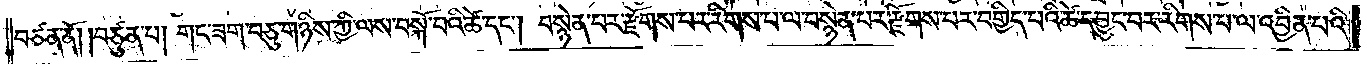བཙན་ནོ། །བཙུན་པ། གང་ཟག་བཅུ་གཉིས་ཀྱི་ལས་བསྐོ་བའི་ཚེ་དང༌། བསྙེན་པར་རྫོགས་པར་རིགས་པ་ལ་བསྙེན་པར་རྫོགས་པར་བགྱིད་པའི་ཚེ་དབྱུང་བར་རིགས་པ་ལ་འབྱིན་པའི་
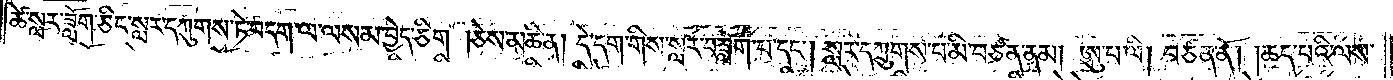ཚེ་སླར་ཟློག་ཅིང་སླར་དཀུགས་ཏེ་བདག་ལ་ལས་མ་བྱེད་ཅིག །ཅེས་མཆི་ན། དེ་དག་གིས་སླར་བཟློག་པ་དང༌། སླར་དཀྲུགས་པ་མི་བཙན་ནམ། ཨུ་པ་ལི། བཙན་ནོ། །ཆད་པའི་ལས་
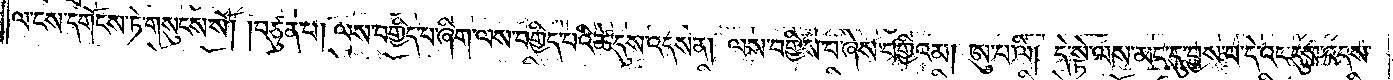ལ་ངས་དགོངས་ཏེ་གསུངས་སོ། །བཙུན་པ། ལས་བགྱིད་པ་ཞིག་ལས་བགྱིད་པའི་ཚེ་དུས་འདས་ན། ལས་བགྱིས་པ་ཞེས་བགྱིའམ། ཨུ་པ་ལི། དེ་སྟེ་ལས་མང་དུ་བྱས་པ་དེའང་དུས་འདས་
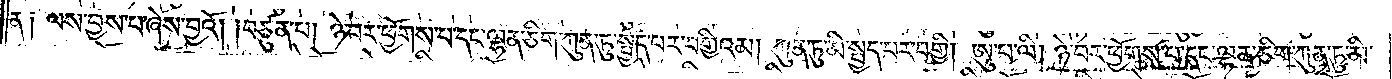ན། ལས་བྱས་པ་ཞེས་བྱའོ། །བཙུན་པ། ཉེ་བར་ཕྱོགས་པ་དང་ལྷན་ཅིག་ཀུན་ཏུ་སྤྱད་པར་བགྱིའམ། ཀུན་ཏུ་མི་སྤྱད་པར་བགྱི། ཨུ་པ་ལི། ཉེ་བར་ཕྱོགས་པ་དང་ལྷན་ཅིག་ཀུན་ཏུ་མི་
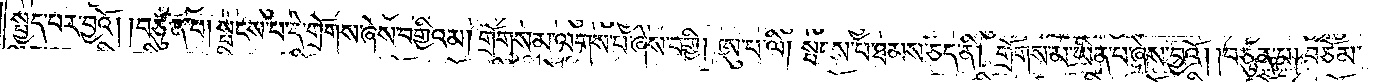སྤྱད་པར་བྱའོ། །བཙུན་པ། སྤངས་པ་དེ་གྲོགས་ཞེས་བགྱིའམ། གྲོགས་མ་ལགས་པ་ཞེས་བགྱི། ཨུ་པ་ལི། སྤངས་པ་ཐམས་ཅད་ནི། གྲོགས་མ་ཡིན་པ་ཞེས་བྱའོ། །བཙུན་པ། བཅོམ་
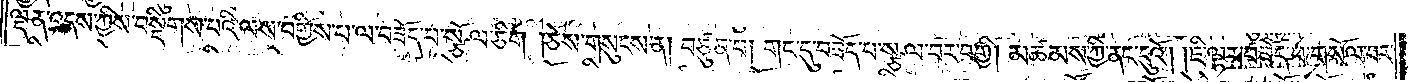ལྡན་འདས་ཀྱིས་བསྡིགས་པའི་ལས་བགྱིས་པ་ལ་བཟོད་པ་སྩོལ་ཅིག །ཅེས་གསུངས་ན། བཙུན་པ། གང་དུ་བཟོད་པ་སྩལ་བར་བགྱི། མཚམས་ཀྱི་ནང་དུའོ། །ཇི་ལྟར་བཟོད་པ་གསོལ་བར་
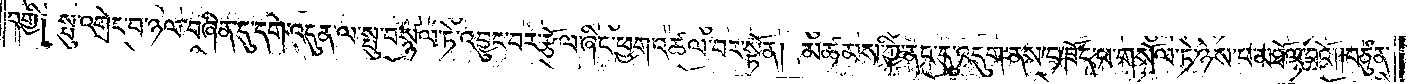བགྱི། སྤུ་འགྲེང་བ་ཉལ་བཞིན་དུ་དགེ་འདུན་ལ་སྤུ་བསྙལ་ཏེ་འབྱུང་བར་རྩོལ་ཞིང་ཕྱག་འཚལ་བར་སྟོན། མཚམས་ཀྱི་ནང་དུ་འདུག་ནས་བཟོད་པ་གསོལ་ཏེ་ཉེས་པ་མཐོལ་བའོ། །བཙུན་
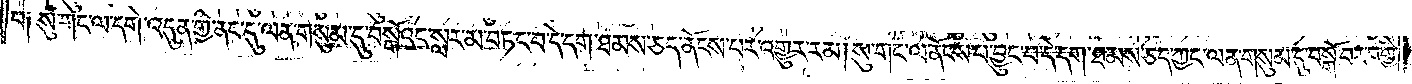པ། སུ་གང་ལ་དགེ་འདུན་གྱི་ནང་དུ་ལན་གསུམ་དུ་བསྒོའང་སླར་མ་བཏང་བ་དེ་དག་ཐམས་ཅད་ནོངས་པར་འགྱུར་རམ། སུ་གང་ལ་ནོངས་པ་བྱུང་བ་དེ་དག་ཐམས་ཅད་ཀྱང་ལན་གསུམ་དུ་བསྒོ་བར་བགྱི་
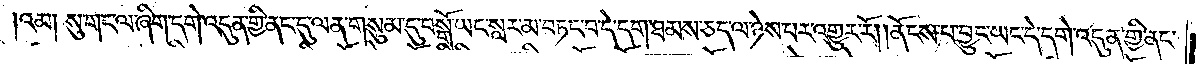འམ། སུ་གང་ལ་ཞིག་དགེ་འདུན་གྱི་ནང་དུ་ལན་གསུམ་དུ་བསྒོ་ཡང་སླར་མ་བཏང་བ་དེ་དག་ཐམས་ཅད་ལ་ཉེས་པར་འགྱུར་རོ། །ནོངས་པ་བྱུང་ཡང་དེ་དགེ་འདུན་གྱི་ནང་
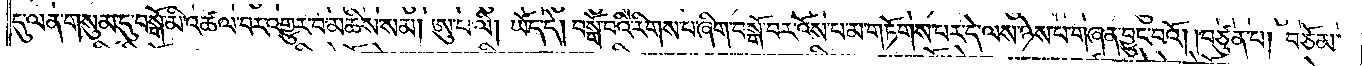དུ་ལན་གསུམ་དུ་བསྒོ་མི་འཚལ་བར་འགྱུར་བ་མཆིས་སམ། ཨུ་པ་ལི། ཡོད་དེ། བསྒོ་བའི་རིགས་པ་ཞིག་བསྒོ་བར་འོས་པ་མ་གཏོགས་པར་དེ་ལས་ཉེས་པ་གཞན་བྱུང་བའོ། །བཙུན་པ། བཅོམ་
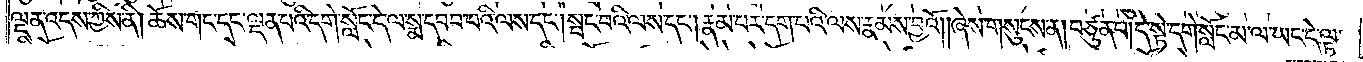ལྡན་འདས་ཀྱིས་ནི། ཆོས་གང་དང་ལྡན་པའི་དགེ་སློང་དེ་ལ་སྨ་དབབ་པའི་ལས་དང༌། སྤང་བའི་ལས་དང༌། རྣམ་པར་དག་པའི་ལས་རྣམས་བྱའོ། །ཞེས་གསུངས་ན། བཙུན་པ། དེ་སྟེ་དགེ་སློང་མ་ལ་ཡང་དེ་ལྟ་
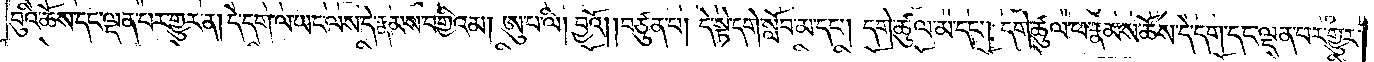བུའི་ཆོས་དང་ལྡན་པར་གྱུར་ན། དེ་དག་ལ་ཡང་ལས་དེ་རྣམས་བགྱིའམ། ཨུ་པ་ལི། བྱའོ། །བཙུན་པ། དེ་སྟེ་དགེ་སློབ་མ་དང༌། དགེ་ཚུལ་མ་དང༌། དགེ་ཚུལ་ཕ་རྣམས་ཆོས་དེ་དག་དང་ལྡན་པར་གྱུར་
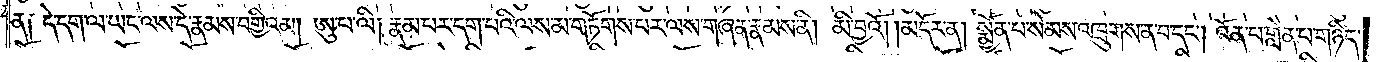ན། དེ་དག་ལ་ཡང་ལས་དེ་རྣམས་བགྱིའམ། ཨུ་པ་ལི། རྣམ་པར་དག་པའི་ལས་མ་གཏོགས་པར་ལས་གཞན་རྣམས་ནི། མི་བྱའོ། །མདོར་ན། སྨྱོན་པ་སེམས་འཁྲུགས་ན་བ་དང༌། འོན་པ་གླེན་པ་གཉིད་
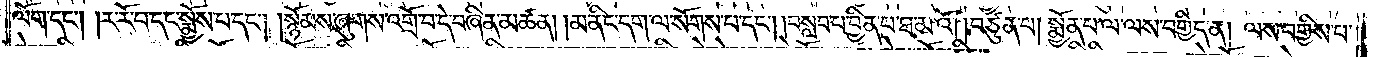ལོག་དང༌། །ར་རོ་བ་དང་སྨྱོས་པ་དང༌། །སྙོམས་ཞུགས་འགྲོ་བ་དེ་བཞིན་མཚན། །མ་ནིང་དག་ལ་སོགས་པ་དང༌། །བསླབ་པ་བྱིན་པ་ཐ་མའོ། །བཙུན་པ། སྨྱོན་པ་ལ་ལས་བགྱིད་ན། ལས་བགྱིས་པ་
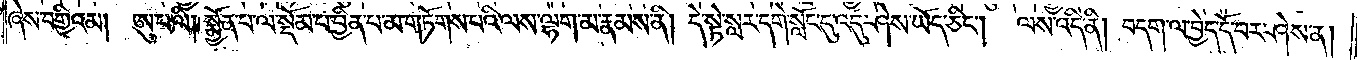ཞེས་བགྱིའམ། ཨུ་པ་ལི། སྨྱོན་པ་ལ་སྡོམ་པ་བྱིན་པ་མ་གཏོགས་པའི་ལས་ལྷག་མ་རྣམས་ནི། དེ་སྟེ་སླར་དགེ་སློང་དུ་འདུ་ཤེས་ཡོད་ཅིང༌།<gap>ལས་འདི་ནི། བདག་ལ་བྱེད་དོ་བར་ཤེས་ན།
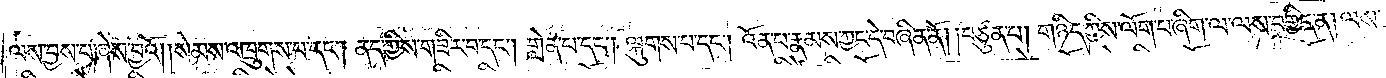ལས་བྱས་བ་ཞེས་བྱའོ། །སེམས་འཁྲུགས་པ་དང༌། ནད་ཀྱིས་གཟིར་བ་དང༌། གླེན་པ་དང༌། ལྐུགས་པ་དང༌། འོན་པ་རྣམས་ཀྱང་དེ་བཞིན་ནོ། །བཙུན་པ། གཉིད་ཀྱིས་ལོག་པ་ཞིག་ལ་ལས་བགྱིད་ན། ལས་
